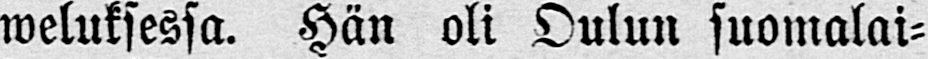weluksessa. Hän oli Oulun suomalai-
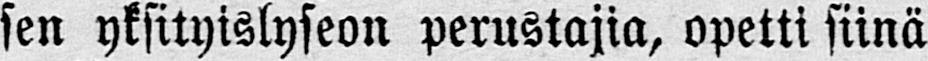sen yksityislyseon perustajia, opetti siinä
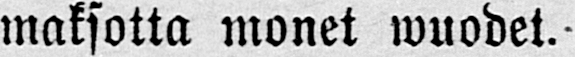maksatta monet wuodet.-
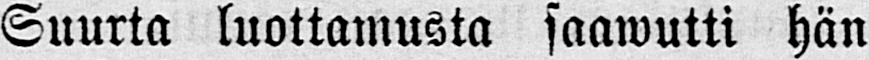Suurta luottamusta saawutti hän
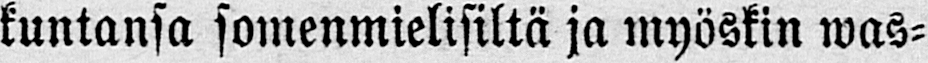kuntansa somenmielisiltä ja myöskin was-
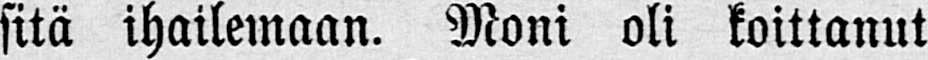sitä ihailemaan. Moni oli koittanut
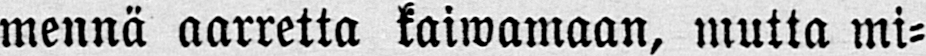mennä aarretta kaiwamaan, mutta mi-
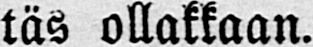täs ollakkaan.
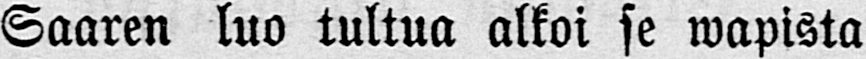Saaren luo tultua alkoi se wapista
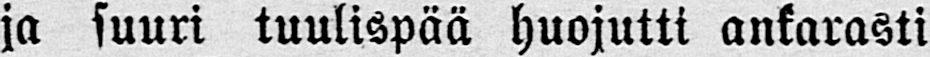ja suuri tuulispää huojutti ankarasti
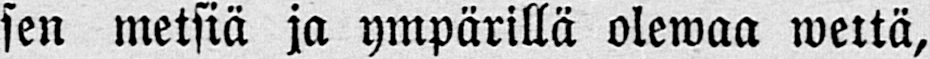sen metsiä ja ympärillä olewaa wettä,
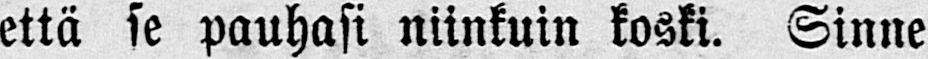että se pauhasi niinkuin koski. Sinne
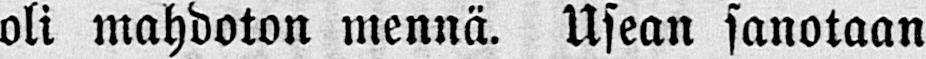oli mahdoton mennä. Usean sanotaan
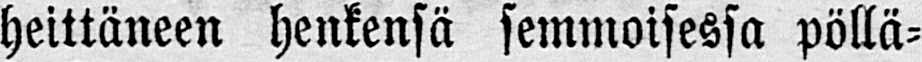heittäneen henkensä semmoisessa pöllä-
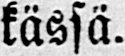kässä.
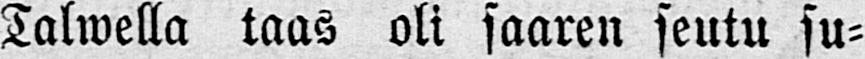Talwella taas oli saaren seutu su-
